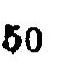50
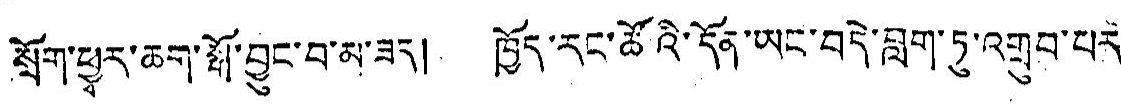སྲོག་ཕྱྭར་ཆག་སྒྲོ་བྱུང་བ་མ་ཟད། ཁྱོད་རང་ཚོའི་དོན་ཡང་བདེ་བླག་ཏུ་འགྲུབ་པར་
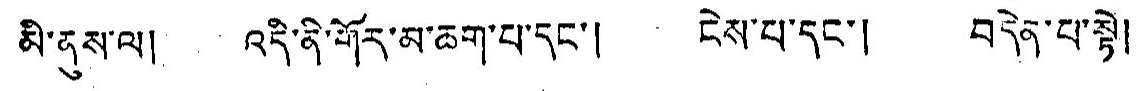མི་ནུས་ལ། འདི་ནི་གོར་མ་ཆག་པ་དང་། ངེས་པ་དང་། བདེན་པ་སྟེ།
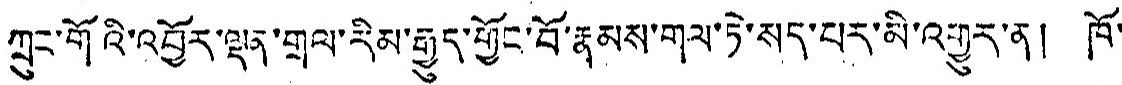ཀྲུང་གོའི་འབྱོར་ལྡན་གྲལ་རིམ་རྒྱུད་གྱོང་བོ་རྣམས་གལ་ཏེ་སད་པར་མི་འགྱུར་ན། ཁོ་
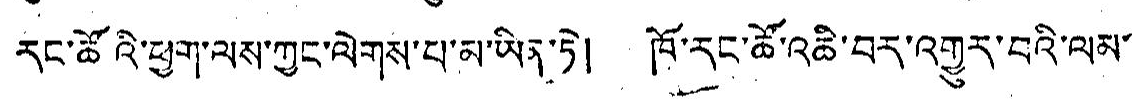རང་ཚོའི་ཕྱག་ལས་ཀྱང་ལེགས་པ་མ་ཡིན་ཏེ། ཁོ་རང་ཚོ་འཆི་བར་འགྱུར་བའི་ལམ་
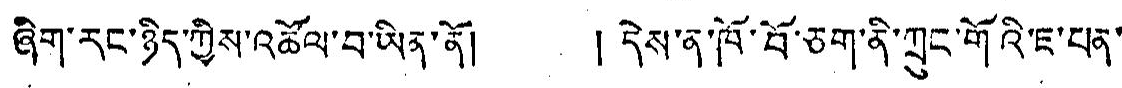ཞིག་རང་ཉིད་ཀྱིས་འཚོལ་བ་ཡིན་ནོ། །དེས་ན་ཁོ་བོ་ཅག་ནི་ཀྲུང་གོའི་ཇ་པན་
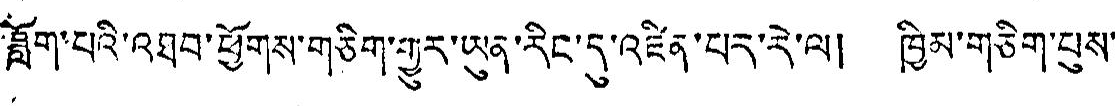ཟློག་པའི་འཐབ་ཕྱོགས་གཅིག་གྱུར་ཡུན་རིང་དུ་འཛིན་པར་རེ་ལ། ཁྱིམ་གཅིག་པུས་
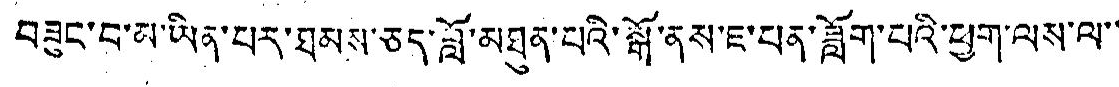བཟུང་བ་མ་ཡིན་པར་ཐམས་ཅད་བློ་མཐུན་པའི་སྒོ་ནས་ཇ་པན་ཟློག་པའི་ཕྱུག་ལས་ལ་་
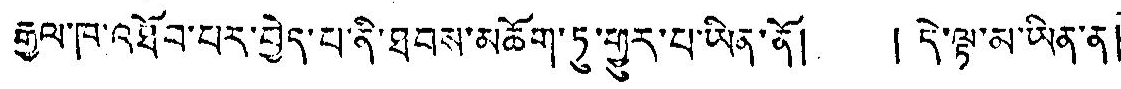རྒྱལ་ཁ་འཐོབ་པར་བྱེད་པ་ནི་ཐབས་མཆོག་ཏུ་གྱུར་པ་ཡིན་ནོ། །དེ་ལྟ་མ་ཡིན་ན།
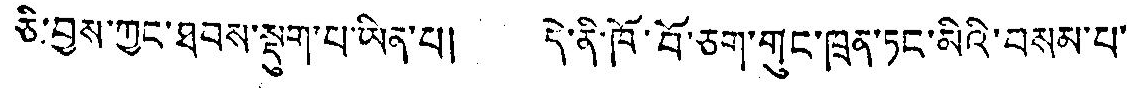ཅི་བྱས་ཀྱང་ཐབས་སྡུག་པ་ཡིན་པ། དེ་ནི་ཁོ་བོ་ཅག་གུང་ཁྲན་ཏང་མིའི་བསམ་པ་
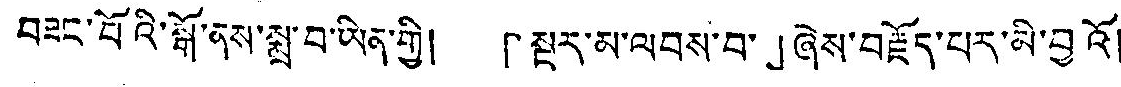བཟང་པོའི་སྒོ་ནས་སྨྲ་བ་ཡིན་གྱི། 「སྔར་མ་ལབས་བ་」ཞེས་བརྗོད་པར་མི་བྱའོ།
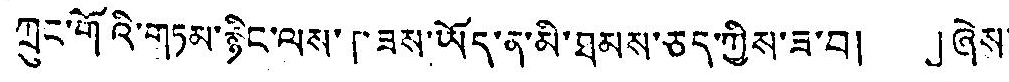ཀྲུང་གོའི་གཏམ་རྙིང་ལས་「ཟས་ཡོད་ན་མི་ཐམས་ཅད་ཀྱིས་ཟ་བ། 」ཞེས་
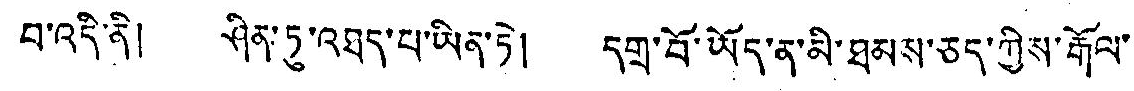བ་འདི་ནི། ཤིན་ཏུ་འཐད་པ་ཡིན་ཏེ། དགྲ་བོ་ཡོད་ན་མི་ཐམས་ཅད་ཀྱིས་རྒོལ་
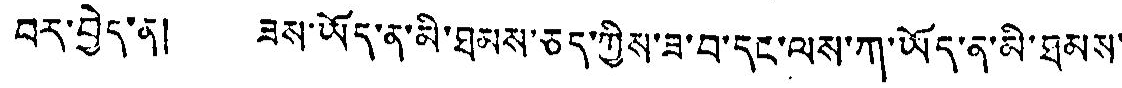བར་བྱེད་ན། ཟས་ཡོད་ན་མི་ཐམས་ཅད་ཀྱིས་ཟ་བ་དང་ལས་ཀ་ཡོད་ན་མི་ཐམས་
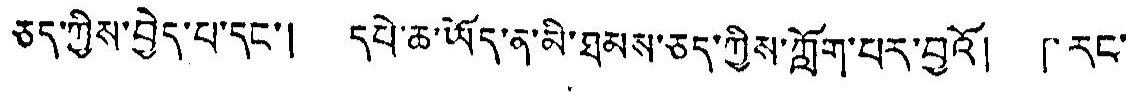ཅད་ཀྱིས་བྱེད་པ་དང་། དཔེ་ཆ་ཡོད་ན་མི་ཐམས་ཅད་ཀྱིས་ཀློག་པར་བྱའོ། 「རང་
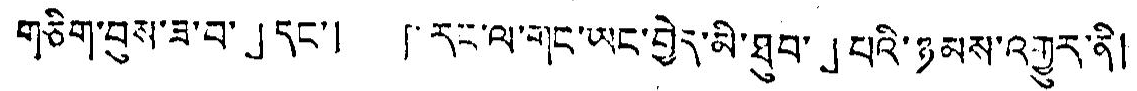གཅིག་བུས་ཟ་བ་」དང་། 「རང་ལ་གང་ཡང་བྱེད་མི་ཐུབ་」པའི་ཉམས་འགྱུར་ནི།
